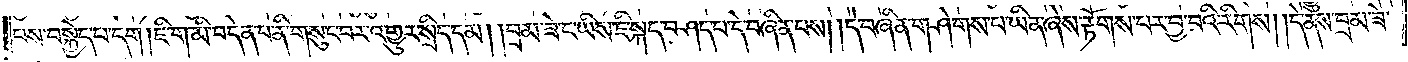པས་བསྐྱེད་པ་དག །ཇི་ག་མི་བདེན་པ་ནི་གསུང་བར་འགྱུར་སྲིད་དམ། །བྲམ་ཟེ་ང་ཡིས་ཇི་སྐད་བཤད་པ་དེ་བཞིན་པས། །དེ་བཞིན་གཤེགས་པ་ཡིན་ཞེས་རྟོགས་པར་བྱ་བའི་རིགས། །དེ་ནས་བྲམ་ཟེ་
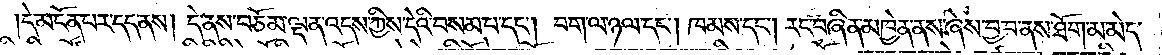།དེ་མངོན་པར་དད་ནས། དེ་ནས་བཅོམ་ལྡན་འདས་ཀྱིས་དེའི་བསམ་པ་དང༌། བག་ལ་ཉལ་དང༌། ཁམས་དང༌། རང་བཞིན་མཁྱེན་ནས་ཞེས་བྱ་བ་ནས་ཐོག་མ་མེད་
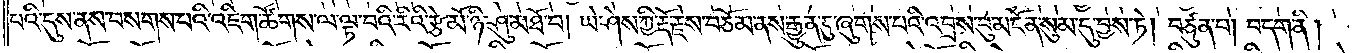པའི་དུས་ནས་བསགས་པའི་འཇིག་ཚོགས་ལ་ལྟ་བའི་རིའི་རྩེ་མོ་ཉི་ཤུ་མཐོ་བ། ཡེ་ཤེས་ཀྱི་རྡོ་རྗེས་བཅོམ་ནས་རྒྱུན་དུ་ཞུགས་པའི་འབྲས་བུ་མངོན་སུམ་དུ་བྱས་ཏེ། བཙུན་པ། བདག་ནི།
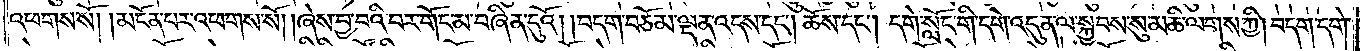འཕགས་སོ། །མངོན་པར་འཕགས་སོ། །ཞེས་བྱ་བའི་བར་གོང་མ་བཞིན་དུའོ། །བདག་བཅོམ་ལྡན་འདས་དང༌། ཆོས་དང༌། དགེ་སློང་གི་དགེ་འདུན་ལ་སྐྱབས་སུ་མཆི་ལགས་ཀྱི། བདག་དགེ་
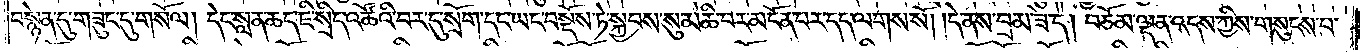བསྙེན་དུ་གཟུང་དུ་གསོལ། དེང་སླན་ཆད་ཇི་སྲིད་འཚོའི་བར་དུ་སྲོག་དང་ཡང་བསྔོས་ཏེ་སྐྱབས་སུ་མཆི་བར་མངོན་པར་དད་ལགས་སོ། །དེ་ནས་བྲམ་ཟེ་དེ། བཅོམ་ལྡན་འདས་ཀྱིས་གསུངས་པ་
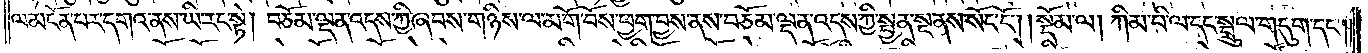ལ་མངོན་པར་དགའ་ནས་ཡི་རང་སྟེ། བཅོམ་ལྡན་འདས་ཀྱི་ཞབས་གཉིས་ལ་མགོ་བོས་ཕྱག་བྱས་ནས་བཅོམ་ལྡན་འདས་ཀྱི་སྤྱན་སྔ་ནས་སོང་ངོ༌།    །སྡོམ་ལ། ཀིམ་པི་ལ་དང་སྦྲུལ་གདུག་དང༌༎
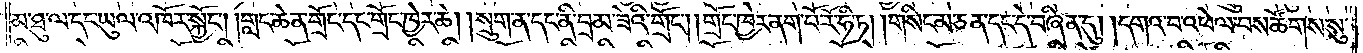མ་ཐུ་ལ་དང་ཡུལ་འཁོར་སྐྱོང༌། །གླང་ཆེན་གྲོང་དང་གྲོང་ཁྱེར་ཆེ། །སྲུག་ན་དང་ནི་བྲམ་ཟེའི་གྲོང༌། །གྲོང་ཁྱེར་ནག་པོ་རོ་ཧི་ཏ། །གསིང་མ་ཅན་དང་དེ་བཞིན་དུ། །དགའ་བ་འཕེལ་བས་ཚོགས་སུ་
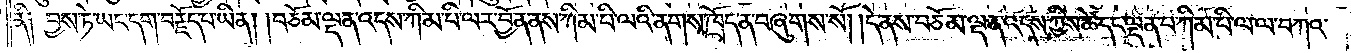ནི ༑ བྱས་ཏེ་ཡང་དག་བརྗེད་པ་ཡིན། །བཅོམ་ལྡན་འདས་ཀིམ་པི་ལར་བྱོན་ནས་ཀིམ་པི་ལའི་ནགས་ཁྲོད་ན་བཞུགས་སོ། །དེ་ནས་བཅོམ་ལྡན་འདས་ཀྱིས་ཚེ་དང་ལྡན་པ་ཀིམ་པི་ལ་ལ་བཀའ་
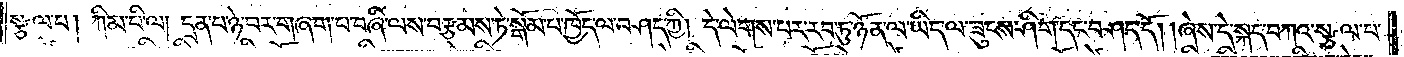སྩལ་པ། ཀིམ་པི་ལ། དྲན་པ་ཉེ་བར་གཞག་པ་བཞི་ལས་བརྩམས་ཏེ་སྒོམ་པ་ཁྱོད་ལ་བཤད་ཀྱི། དེ་ལེགས་པར་རབ་ཏུ་ཉོན་ལ་ཡིད་ལ་ཟུངས་ཤིག་དང་བཤད་དོ། །ཞེས་དེ་སྐད་བཀའ་སྩལ་པ་
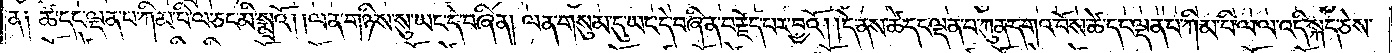ན༑ ཚེ་དང་ལྡན་པ་ཀིམ་པི་ལ་ཅང་མི་སྨྲའོ། །ལན་གཉིས་སུ་ཡང་དེ་བཞིན། ལན་གསུམ་དུ་ཡང་དེ་བཞིན་བརྗོད་པར་བྱའོ། །དེ་ནས་ཚེ་དང་ལྡན་པ་ཀུན་དགའ་བོས་ཚེ་དང་ལྡན་པ་ཀིམ་པི་ལ་ལ་འདི་སྐད་ཅེས་
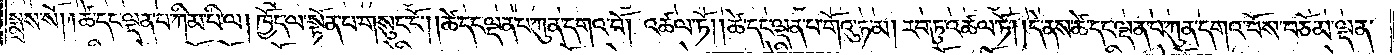སྨྲས་སོ། །ཚེ་དང་ལྡན་པ་ཀིམ་པི་ལ། ཁྱོད་ལ་སྟོན་པ་གསུང་ངོ༌། །ཚེ་དང་ལྡན་པ་ཀུན་དགའ་བོ། འཚལ་ཏོ། །ཚེ་དང་ལྡན་པ་གོའུ་ཏ་མ། རབ་ཏུ་འཚལ་ཏོ། །དེ་ནས་ཚེ་དང་ལྡན་པ་ཀུན་དགའ་བོས་བཅོམ་ལྡན་
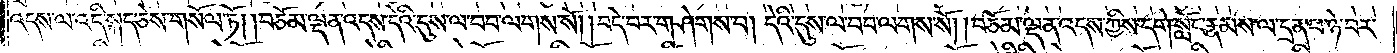འདས་ལ་འདི་སྐད་ཅེས་གསོལ་ཏོ། །བཅོམ་ལྡན་འདས་དེའི་དུས་ལ་བབ་ལགས་སོ། །བདེ་བར་གཤེགས་པ། དེའི་དུས་ལ་བབ་ལགས་སོ། །བཅོམ་ལྡན་འདས་ཀྱིས་དགེ་སློང་རྣམས་ལ་དྲན་པ་ཉེ་བར་
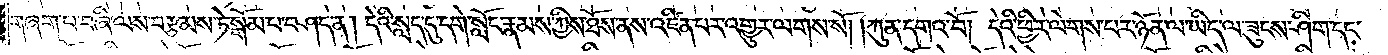གཞག་པ་བཞི་ལས་བརྩམས་ཏེ་སྒོམ་པ་བཤད་ན། དེའི་སླད་དུ་དགེ་སློང་རྣམས་ཀྱིས་ཐོས་ནས་འཛིན་པར་འགྱུར་ལགས་སོ། །ཀུན་དགའ་བོ། དེའི་ཕྱིར་ལེགས་པར་ཉོན་ལ་ཡིད་ལ་ཟུངས་ཤིག་དང་
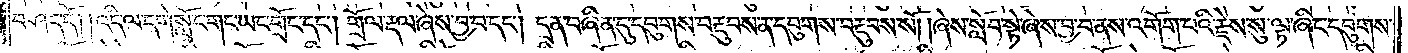བཤད་དོ། །འདི་ལ་དགེ་སློང་གང་ཡང་གྲོང་དང༌། གྲོལ་རྡལ་ཞེས་བྱ་བ་དང༌། དྲན་བཞིན་དུ་དབུགས་བརྔུབས་ན་དབུགས་བརྔུབས་སོ། །ཞེས་སློབ་སྟེ་ཞེས་བྱ་བ་ནས་འགོག་པའི་རྗེས་སུ་ལྟ་ཞིང་དབུགས་
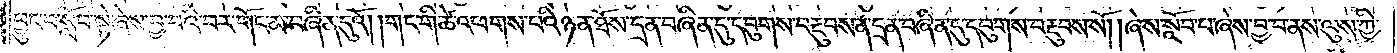ཕྱུང་བ་སློབ་སྟེ་ཞེས་བྱ་བའི་བར་གོང་མ་བཞིན་དུའོ། །གང་གི་ཚེ་འཕགས་པའི་ཉན་ཐོས་དྲན་བཞིན་དུ་དབུགས་བརྔུབས་ན་དྲན་བཞིན་དུ་དབུགས་བརྔུབས་སོ། །ཞེས་སློབ་པ་ཞེས་བྱ་བ་ནས་ལུས་ཀྱི་
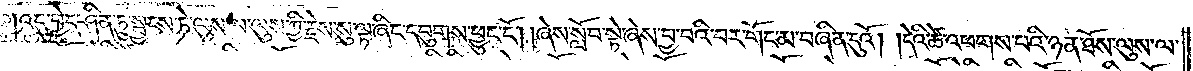།འདུ་བྱེད་ཤིན་ཏུ་སྦྱངས་ཏེ་ལུས་ལ་ལུས་ཀྱི་རྗེས་སུ་ལྟ་ཞིང་དབུགས་ཕྱུང་ངོ༌། །ཞེས་སློབ་སྟེ་ཞེས་བྱ་བའི་བར་གོང་མ་བཞིན་དུའོ། །དེའི་ཚེ་འཕགས་པའི་ཉན་ཐོས་ལུས་ལ་
